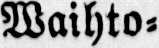Waihto-
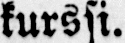kurssi.
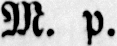M. p.
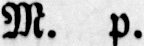M. p.
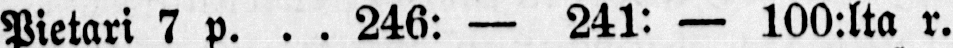Pietari 7 p. . . 246: — 241: — 100:lta r.
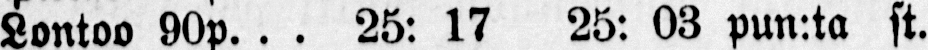Lontoo 90p. . . 25: 17 25: 03 pun:ta st.
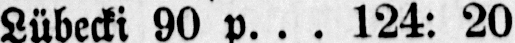Lübecki 90 p. . . 124: 20 — —
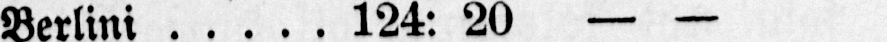Berlini . . . . . 124: 20 — —
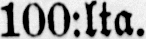100:lta.
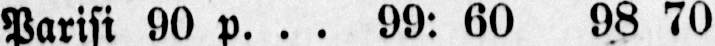Parisi 90 p. . . 99: 60 98 70
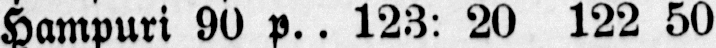Hampuri 90 p.. 123: 20 122 50
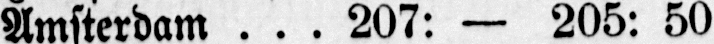Amsterdam . . . 207: — 205: 50
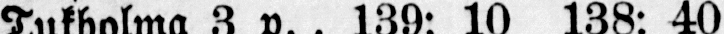Tukholma 3 p. . 139: 10 138: 40
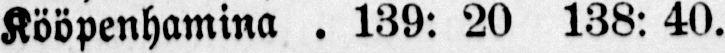Kööpenhamina . 139: 20 138: 40.
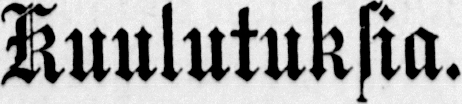Kuulutuksia.
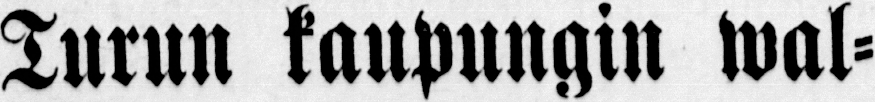Turun kaupungin wal-
